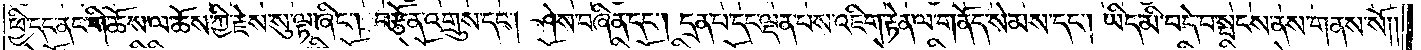ཕྱི་དང་ནང་གི་ཆོས་ལ་ཆོས་ཀྱི་རྗེས་སུ་ལྟ་ཞིང༌། བརྩོན་འགྲུས་དང༌། ཤེས་བཞིན་དང༌། དྲན་པ་དང་ལྡན་པས་འཇིག་རྟེན་ལ་གནོད་སེམས་དང༌། ཡིད་མི་བདེ་བ་སྤངས་ནས་གནས་སོ། །
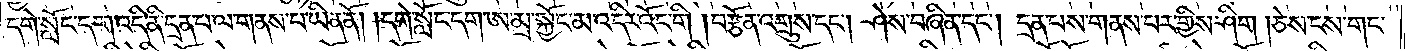དགེ་སློང་དག་འདི་ནི་དྲན་པ་ལ་གནས་པ་ཡིན་ནོ། །དགེ་སློང་དག་ཨ་མྲ་སྐྱོང་མ་འདིར་འོང་གི །བརྩོན་འགྲུས་དང༌། ཤེས་བཞིན་དང༌། དྲན་པས་གནས་པར་གྱིས་ཤིག །ཅེས་ངས་གང་
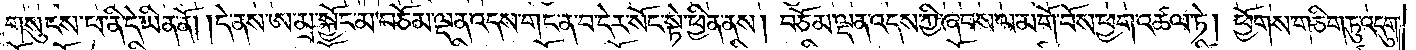གསུངས་པ་ནི་དེ་ཡིན་ནོ། །དེ་ནས་ཨ་མྲ་སྐྱོང་མ་བཅོམ་ལྡན་འདས་གང་ན་བ་དེར་སོང་སྟེ་ཕྱིན་ནས། བཅོམ་ལྡན་འདས་ཀྱི་ཞབས་ལ་མགོ་བོས་ཕྱག་འཚལ་ཏེ། ཕྱོགས་གཅིག་ཏུ་འདུག་
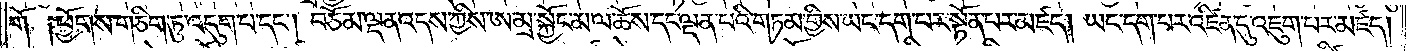གོ ༑ཕྱོགས་གཅིག་ཏུ་འདུག་པ་དང༌། བཅོམ་ལྡན་འདས་ཀྱིས་ཨ་མྲ་སྐྱོང་མ་ལ་ཆོས་དང་ལྡན་པའི་གཏམ་གྱིས་ཡང་དག་པར་སྟོན་པར་མཛད། ཡང་དག་པར་འཛིན་དུ་འཇུག་པར་མཛད།
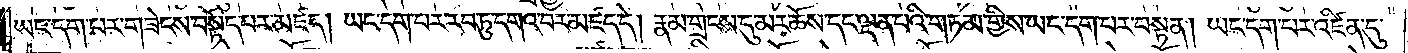ཡང་དག་པར་གཟེངས་བསྟོད་པར་མཛད། ཡང་དག་པར་རབ་ཏུ་དགའ་བར་མཛད་དེ། རྣམ་གྲངས་དུ་མར་ཆོས་དང་ལྡན་པའི་གཏམ་གྱིས་ཡང་དག་པར་བསྟན། ཡང་དག་པར་འཛིན་དུ་
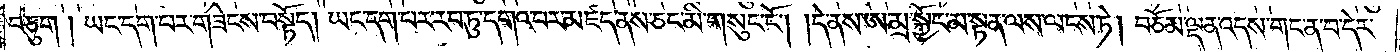བཅུག །ཡང་དག་པར་གཟེངས་བསྟོད། ཡང་དག་པར་རབ་ཏུ་དགའ་བར་མཛད་ནས་ཅང་མི་གསུང་ངོ༌། །དེ་ནས་ཨ་མྲ་སྐྱོང་མ་སྟན་ལས་ལངས་ཏེ། བཅོམ་ལྡན་འདས་གང་ན་བ་དེར་
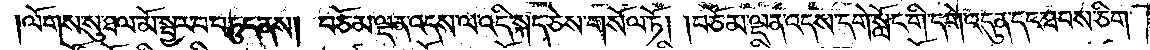ལོགས་སུ་ཐལ་མོ་སྦྱར་བ་བཏུད་ནས། བཅོམ་ལྡན་འདས་ལ་འདི་སྐད་ཅེས་གསོལ་ཏོ། །བཅོམ་ལྡན་འདས་དགེ་སློང་གི་དགེ་འདུན་དང་ཐབས་ཅིག་
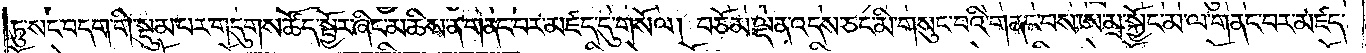ཏུ་སང་བདག་གི་སྡུམ་པར་གདུགས་ཚོད་སྦྱོར་ཞིང་མཆིས་ན་གནང་བར་མཛད་དུ་གསོལ། བཅོམ་ལྡན་འདས་ཅང་མི་གསུང་བའི་གནང་བས་ཨ་མྲ་སྐྱོང་མ་ལ་གནང་བར་མཛད་
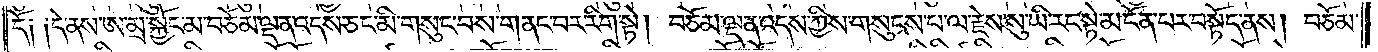དོ༑ ༑དེ་ནས་ཨ་མྲ་སྐྱོང་མ་བཅོམ་ལྡན་འདས་ཅང་མི་གསུང་བས་གནང་བར་རིག་སྟེ། བཅོམ་ལྡན་འདས་ཀྱིས་གསུངས་པ་ལ་རྗེས་སུ་ཡི་རང་སྟེ་མངོན་པར་བསྟོད་ནས། བཅོམ་
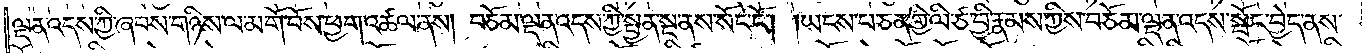ལྡན་འདས་ཀྱི་ཞབས་གཉིས་ལ་མགོ་བོས་ཕྱག་འཚལ་ནས། བཅོམ་ལྡན་འདས་ཀྱི་སྤྱན་སྔ་ནས་སོང་ངོ༌། །ཡངས་པ་ཅན་གྱི་ལི་ཙ་བྱི་རྣམས་ཀྱིས་བཅོམ་ལྡན་འདས་སྤོང་བྱེད་ནས་
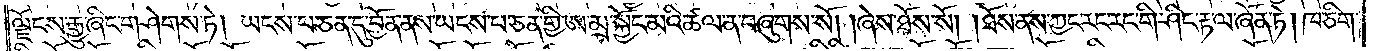ལྗོངས་རྒྱུ་ཞིང་གཤེགས་ཏེ། ཡངས་པ་ཅན་དུ་བྱོན་ནས་ཡངས་པ་ཅན་གྱི་ཨ་མྲ་སྐྱོང་མའི་ཚལ་ན་བཞུགས་སོ། །ཞེས་ཐོས་སོ། །ཐོས་ནས་ཀྱང་རང་རང་གི་ཤིང་རྟ་ལ་ཞོན་ཏེ། ཁ་ཅིག་
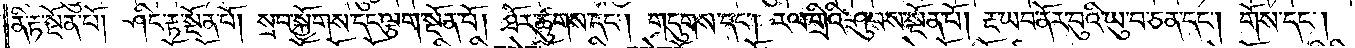ནི་རྟ་སྔོན་པོ། ཤིང་རྟ་སྔོན་པོ། སྲབ་སྐྱོགས་དང་ལྕག་སྔོན་པོ། ཐོར་ཚུགས་དང༌། གདུགས་དང༌། རལ་གྲིའི་ཤུབས་སྔོན་པོ། རྔ་ཡབ་ནོར་བུའི་ཡུ་བ་ཅན་དང༌། གོས་དང༌།
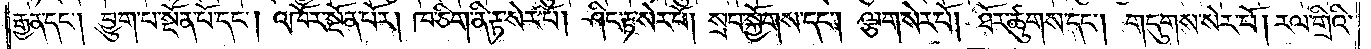རྒྱན་དང༌། བྱུག་པ་སྔོན་པོ་དང༌། འཁོར་སྔོན་པོར། ཁ་ཅིག་ནི་རྟ་སེར་པོ། ཤིང་རྟ་སེར་པོ། སྲབ་སྐྱོགས་དང༌། ལྕག་སེར་པོ། ཐོར་ཚུགས་དང༌། གདུགས་སེར་པོ། རལ་གྲིའི་
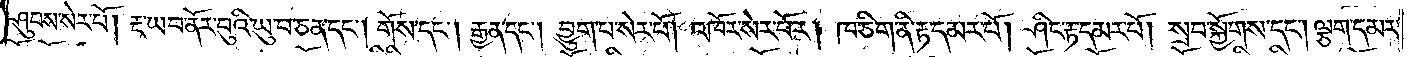ཤུབས་སེར་པོ། རྔ་ཡབ་ནོར་བུའི་ཡུ་བ་ཅན་དང༌། གོས་དང༌། རྒྱན་དང༌། བྱུག་པ་སེར་པོ། འཁོར་སེར་པོར། ཁ་ཅིག་ནི་རྟ་དམར་པོ། ཤིང་རྟ་དམར་པོ། སྲབ་སྐྱོགས་དང༌། ལྕག་དམར་
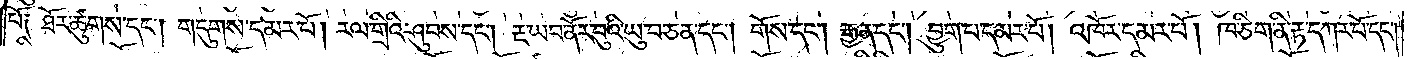པོ༑ ཐོར་ཚུགས་དང༌། གདུགས་དམར་པོ། རལ་གྲིའི་ཤུབས་དང༌། རྔ་ཡབ་ནོར་བུའི་ཡུ་བ་ཅན་དང༌། གོས་དང༌། རྒྱན་དང༌། བྱུག་པ་དམར་པོ། འཁོར་དམར་པོ། ཁ་ཅིག་ནི་རྟ་དཀར་པོ་དང་
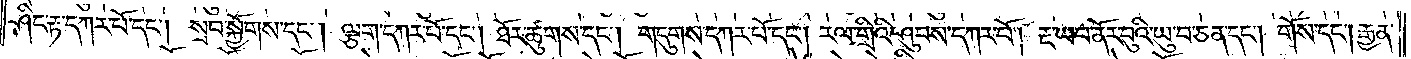ཤིང་རྟ་དཀར་པོ་དང༌། སྲབ་སྐྱོགས་དང༌། ལྕག་དཀར་པོ་དང༌། ཐོར་ཚུགས་དང༌། གདུགས་དཀར་པོ་དང༌། རལ་གྲིའི་ཤུབས་དཀར་པོ། རྔ་ཡབ་ནོར་བུའི་ཡུ་བ་ཅན་དང༌། གོས་དང༌། རྒྱན་
